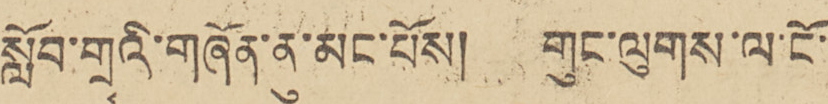སློབ་གྲྭའི་གཞོན་ནུ་མང་པོས། གུང་ལུགས་ལ་ངོ་
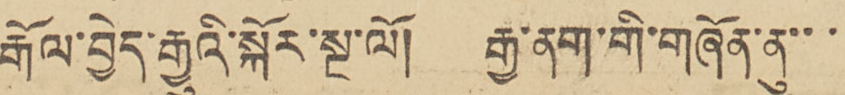རྒོལ་བྱེད་རྒྱུའི་སྐོར་སྔ་ལོ། རྒྱ་ནག་གི་གཞིན་ནུ་་་
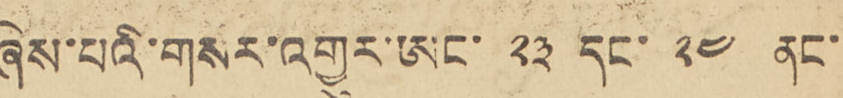ཞེས་པའི་གསར་འགྱུར་ཨང་ ༢༣ དང་ ༢༤ ནང་
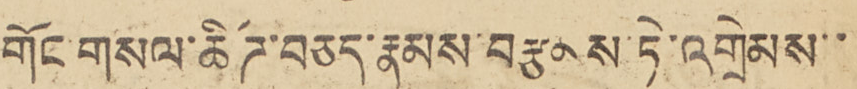གོང་གསལ་ཚིཌ་བཅད་རྣམས་བརྩམས་ཏེ་འགྲེམས་་
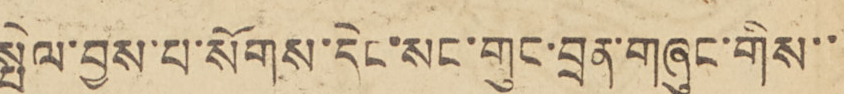སྤེལ་བྱས་པ་སོགས་དེང་སང་གུང་བྲན་གཞུང་གིས་་
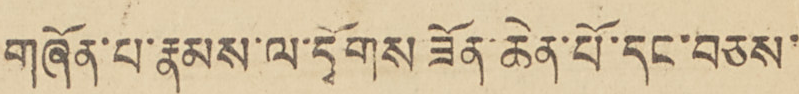གཞོན་པ་རྣམས་ལ་དྭོགས་ཟོན་ ཆེན་པོ་དང་བཅས་
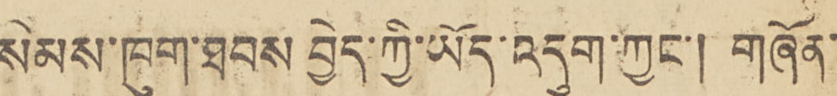སེམས་ཁུག་ཐབས་བྱེད་ཀྱི་ཡོད་འདུག་ཀྱང་། གཞོན་
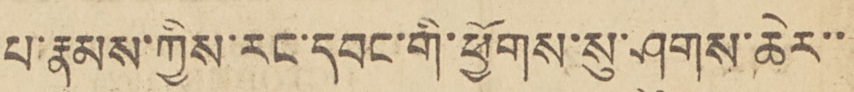པ་རྣམས་ཀྱིས་རང་དབང་གི་ཕྱོགས་སུ་ཤུགས་ཆེར་་
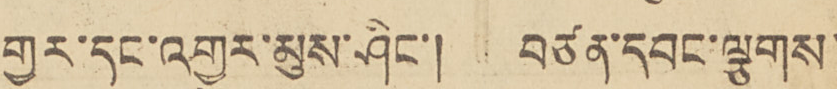གྱུར་དང་འགྱུར་མུས་ཤིང་། བཙན་དབང་ལྕགས་
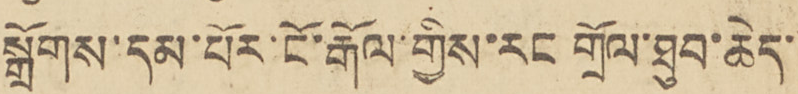སྒྲོགས་དམ་པོར་ངོ་རྒོལ་གྱིས་རང གྲོལ་ཐུབ་ཆེད་
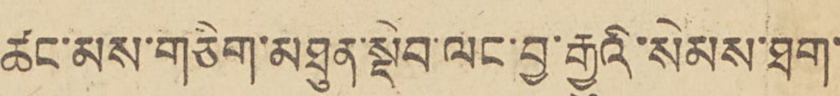ཚང་མས་གཅིག་མཐུན་སྡེབ་ལང་བྱ་རྒྱུའི་སེམས་ཐག་
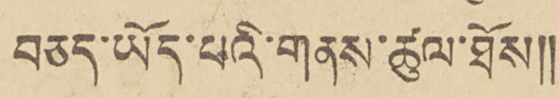བཅད་ཡོད་པའི་གནས་ཚུལ་ཐོས།།
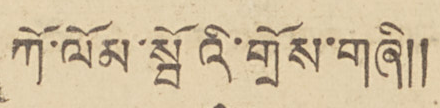ཀོ་ལོམ་སྦོའི་གྲོས་གཞི།།
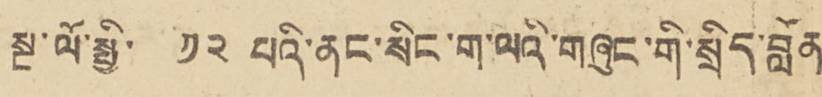སྔ་ལོ་སྤྱི་ ༡༢ པའི་ནང་སིང་ག་ལའི་གཞུང་གི་སྲིད་བློན་
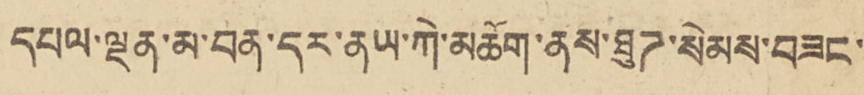དཔལ་ལྡན་མ་བན་དར་ནཡ་ཀེ་མཆོག་ནས་ཐུཊ་སེམས་བཟང་
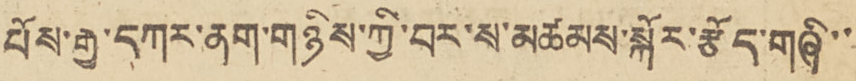པོས་རྒྱ་དཀར་ནག་གཉིས་ཀྱི་བར་ས་མཚམས་སྐོར་རྩོད་གཞི་་
